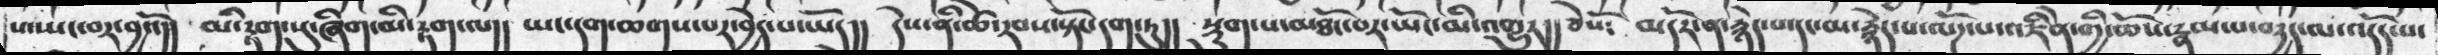པ་ཡང་བར་བྱའོ།།  མི་རྟག་སུ་ཞིག་མི་རྟག་ལ།།  ཡང་དག་ཆགས་པར་བྱེད་པ་ཡོད།།  དེས་ནི་ཚེ་རབས་སྟོང་དག་ཏུ།།  སྡུག་པ་མཐོང་བར་ཡོང་མི་འགྱུར།།  ཅེསོ༴  མདོར་ན་རྙེད་པ་དང་མ་རྙེད་པ་ལོཌ་པ་འཇིེན་གྱི་ཆོས་རྣམ་པ་བདྱད་མ་འདོད་པ་
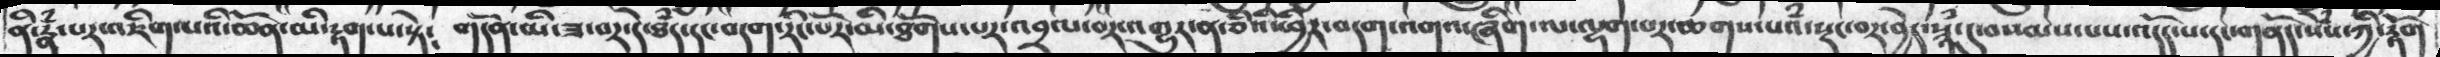ནི་རྣཾ་པར་འཇིག་པའི་ཆོན་མི་རྟག་པ་སྟེ༴  གདོན་མི་ཟད་བར་དེ་ཐཾད་དང་བདག་རིང་པོར་མི་ཐོགས་པར་འབྲལ་བར་འགྱུར་ན་ཅིའི་ཕྱིར་བདག་འགའ་ཞིག་ལ་ལྷག་པར་ཆགས་པའཾ་སྡང་བར་བྱེད་སྙཾ་དུ་བསམས་པས་འདོད་པ་དང་གནོད་སེཾས་ཀྱི་རྟོག
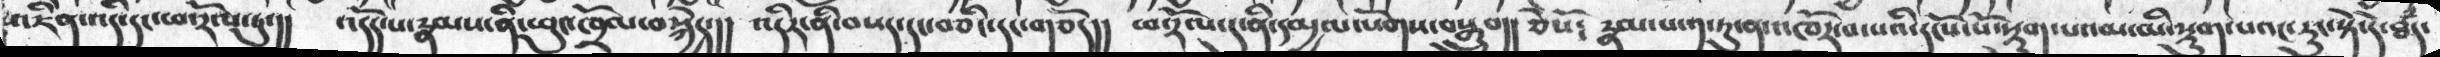འཇིེན་འདི་དང་ཕ་རོལ་ཏུ་།།   འདོད་པ་རྣམས་ནི་ཕུང་ཁྲོལ་བསྐྱེད་།། འདིར་ནི་བསད་དང་བཅིང་དང་གཅོད།།  ཕ་རོལ་དུ་ནི་དམྱལ་སོགས་བསྒྲུབ།། ཅེས༴ རྣམ་པ་༢་ཏུ་ན་འཁོར་བ་པའི་དངོས་པོ་སྡུག་པའམ་མི་སྡུག་པའང་རུང་སྟེ་དེ་ཐཾད་
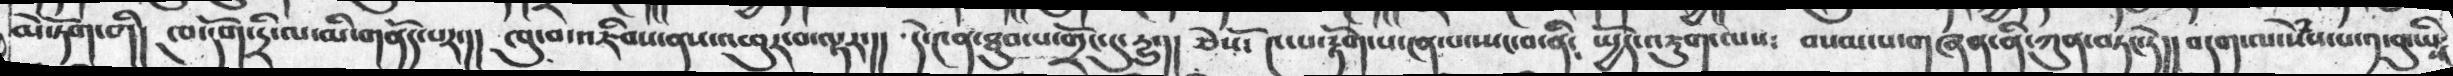མེ་ཏོག་གི།  ཁ་དོག་དྲི་ལ་མི་གནོད་པར་།།  ཁུ་བ་འཇིབས་ནས་འཕུར་བ་ལྟར་།།  དེ་༤ན་ཐུབ་པ་གྲོང་དུ་དྱུ་།།  ཅེསོ༴  ༤་པ་རྟོག་པ་ངན་པ་སྤང་བ་ནི༴  སྤྱོད་འཇུག་ལས༴  བསམ་པ་གཞན་ནི་ཀུན་བཏང་ཏེ།།  བདག་ལ་སེཾས་པ་༡་བུ་ཡིས་
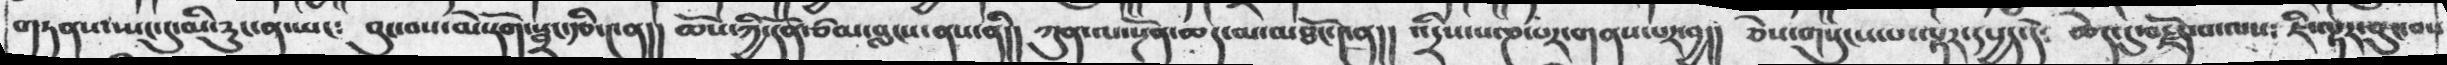གཏནས་ཡང་དུ་མི་རུང་ན་ཡང༴  བུང་བས་མེ་ཏོག་སྦྲང་རྩི་༤ན།། ཆོས་ཀྱི་དོན་ཙམ་བླངས་ནས་ནི།། ཀུན་ལ་སྔོན་ཆད་མ་མཐོང་༤ན།། འདྲིས་པ་ཎ་པར་གནས་པར་བྱ།།  ཅེས་གསུངས་པ་ལྟར་དཔྱད་དེ༴  ཆེད་དུ་བརྗོད་བ་ལས༴ ཇི་ལྟར་བུང་བས
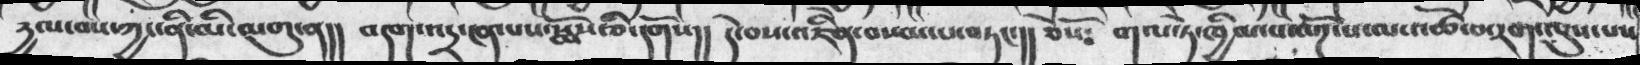རྱལ་བས་ཀྱང་ནི་མི་མགུ་ན།།  བདག་འདྲ་ངན་པས་སྨོས་ཅི་དགོས།།  དེ་བས་འཇིེན་བསམ་པ་བཏང་།།  ཅེསོ༴  གལ་ཏེ་ཁྱིམ་པ་ལོཌ་པ་མ་འཚོ་བ་རག་ལུས་པས་
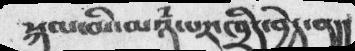སྐལ་མི་མཉཾ་པར་ཁྲིད་བྱེད་ན།།
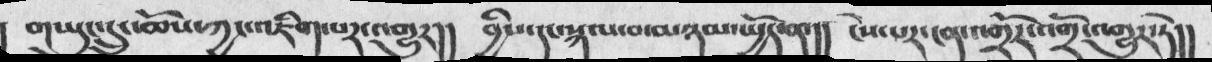། གཡུང་དྲུང་ཆོས་ཀྱང་འཇིག་པར་འགྱུར།།   བྱིས་དང་སྐལ་བ་མཉམ་སྤྱོད་ན་།།  ངེས་པར་ངན་འགྲོར་འགྲོ་འགྱུར་ཏེ།།
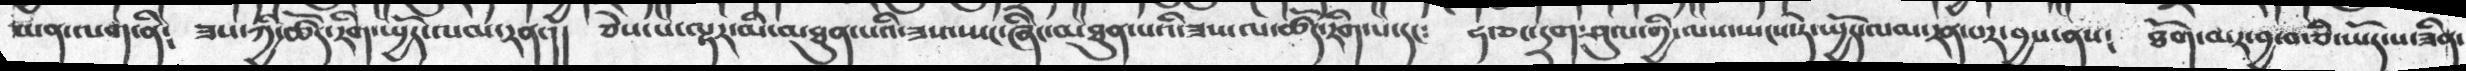ཡན་ལག་ནི༴  ཟས་ཀྱི་ཚོད་རིག་སྤྱོད་ལམ་རན་།།  ཅེས་པ་ལྟར་མི་མཐུན་པའི་ཟས་སྤང་ཞིང་མཐུན་པའི་ཟས་ལ་ཚོད་རིག་པ་དང༴   ཧ་ཅང་དྲག་ཤུལ་གྱི་ལས་སྤངས་ཏེ་སྤྱོད་ལམ་རན་པར་བྱས་ནས༴   ཐོག་མར་བྱ་བ་ཅི་ཡོད་ས་ཟིན་
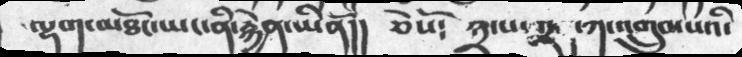ལྷག་མཐོང་ཡང་ནི་རྐྱེན་ཡིནོ།།  ཅེསོ༴  ༣་པ་ཀུན་ཀ་འགྲུབ་པའི་
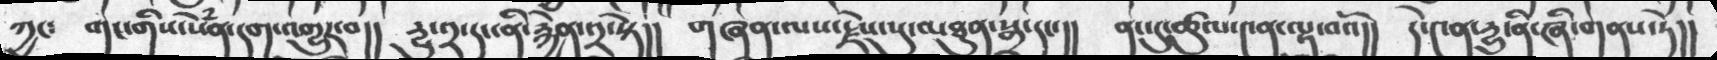ཀྱང༴   གང་གིས་སེཾན་དག་འགྱུར་བ།།  དྱུ་༢་དང་ནི་རྐྱེན་༢་སྟེ།།  གཞན་ལས་རྗེས་སུ་མཐུན་སྒྲ་དང་།།   ནང་དུ་ཚུལ་༤ན་ལྟ་བའོ།།  དེ་༤ན་དྱུ་ནི་ཞི་གནས་ཏེ།།
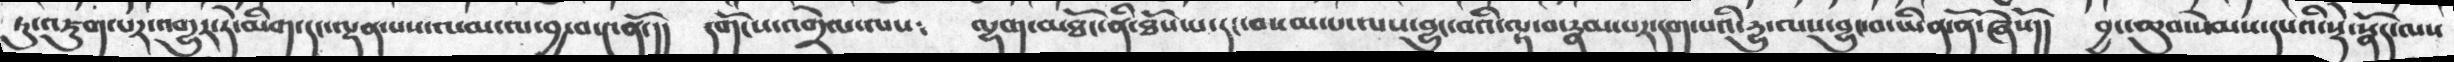ཏུ་འཇུག་པར་འགྱུར་ཏེ་མིག་དང་ལྡན་པས་ལམ་ལ་བྱ་༤ནོ་།།  དགོངས་འགྲེལ་ལས༴   ལྷག་མཐོང་ནི་ཐོས་པ་དང་བསམ་པ་ལས་བྱུང་བའི་ལྟ་བ་རྣམ་པར་དག་པའི་དྱུ་ལས་བྱུང་བ་ཡིན་ནོ་ཞེསོ།།   བྱང་ཆུབ་སེམས་དཔའི་སྡེ་སྣོད་ལས
